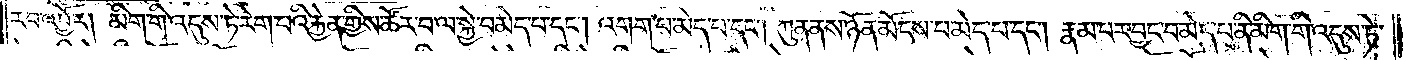རབ་འབྱོར། མིག་གི་འདུས་ཏེ་རེག་པའི་རྐྱེན་གྱིས་ཚོར་བ་ལ་སྐྱེ་བ་མེད་པ་དང༌། འགག་པ་མེད་པ་དང༌། ཀུན་ནས་ཉོན་མོངས་པ་མེད་པ་དང༌། རྣམ་པར་བྱང་བ་མེད་པ་ནི་མིག་གི་འདུས་ཏེ་
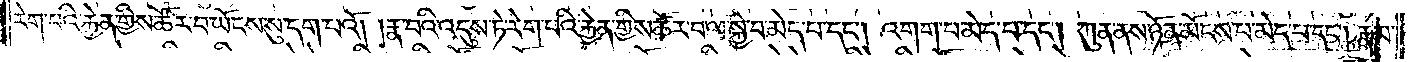རེག་པའི་རྐྱེན་གྱིས་ཚོར་བ་ཡོངས་སུ་དག་པའོ། །རྣ་བའི་འདུས་ཏེ་རེག་པའི་རྐྱེན་གྱིས་ཚོར་བ་ལ་སྐྱེ་བ་མེད་པ་དང༌། འགག་པ་མེད་པ་དང༌། ཀུན་ནས་ཉོན་མོངས་པ་མེད་པ་དང༌། རྣམ་
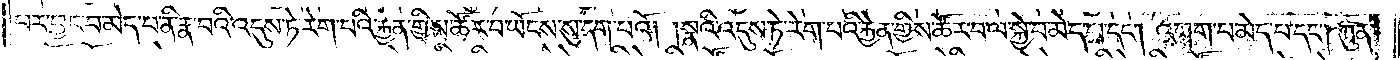པར་བྱང་བ་མེད་པ་ནི་རྣ་བའི་འདུས་ཏེ་རེག་པའི་རྐྱེན་གྱིས་ཚོར་བ་ཡོངས་སུ་དག་པའོ། །སྣའི་འདུས་ཏེ་རེག་པའི་རྐྱེན་གྱིས་ཚོར་བ་ལ་སྐྱེ་བ་མེད་པ་དང༌། འགག་པ་མེད་པ་དང༌། ཀུན་
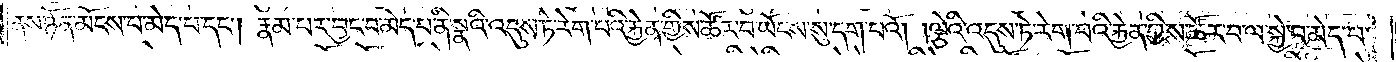ནས་ཉོན་མོངས་པ་མེད་པ་དང༌། རྣམ་པར་བྱང་བ་མེད་པ་ནི་སྣའི་འདུས་ཏེ་རེག་པའི་རྐྱེན་གྱིས་ཚོར་བ་ཡོངས་སུ་དག་པའོ། །ལྕེའི་འདུས་ཏེ་རེག་པའི་རྐྱེན་གྱིས་ཚོར་བ་ལ་སྐྱེ་བ་མེད་པ་
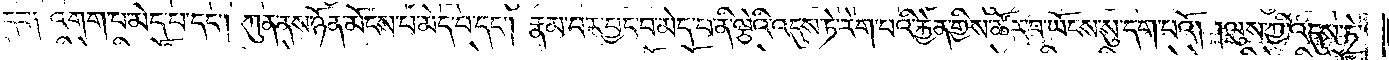དང་༑ འགག་པ་མེད་པ་དང༌། ཀུན་ནས་ཉོན་མོངས་པ་མེད་པ་དང༌། རྣམ་པར་བྱང་བ་མེད་པ་ནི་ལྕེའི་འདུས་ཏེ་རེག་པའི་རྐྱེན་གྱིས་ཚོར་བ་ཡོངས་སུ་དག་པའོ། །ལུས་ཀྱི་འདུས་ཏེ་
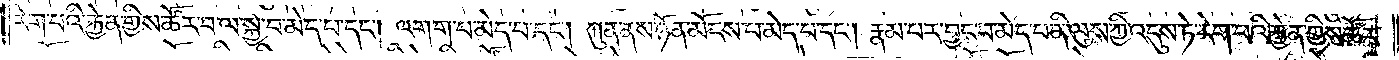རེག་པའི་རྐྱེན་གྱིས་ཚོར་བ་ལ་སྐྱེ་བ་མེད་པ་དང༌། འགག་པ་མེད་པ་དང༌། ཀུན་ནས་ཉོན་མོངས་པ་མེད་པ་དང༌། རྣམ་པར་བྱང་བ་མེད་པ་ནི་ལུས་ཀྱི་འདུས་ཏེ་རེག་པའི་རྐྱེན་གྱིས་ཚོར་
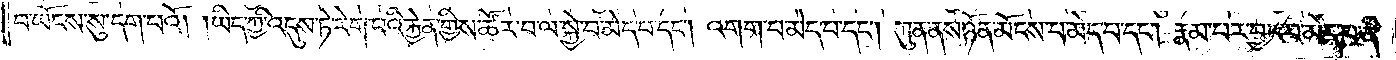བ་ཡོངས་སུ་དག་པའོ། །ཡིད་ཀྱི་འདུས་ཏེ་རེག་པའི་རྐྱེན་གྱིས་ཚོར་བ་ལ་སྐྱེ་བ་མེད་པ་དང༌། འགག་པ་མེད་པ་དང༌། ཀུན་ནས་ཉོན་མོངས་པ་མེད་པ་དང༌། རྣམ་པར་བྱང་བ་མེད་པ་ནི་
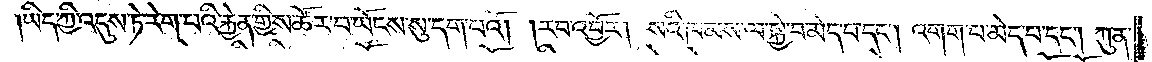ཡིད་ཀྱི་འདུས་ཏེ་རེག་པའི་རྐྱེན་གྱིས་ཚོར་བ་ཡོངས་སུ་དག་པའོ། །རབ་འབྱོར། སའི་ཁམས་ལ་སྐྱེ་བ་མེད་པ་དང༌། འགག་པ་མེད་པ་དང༌། ཀུན་
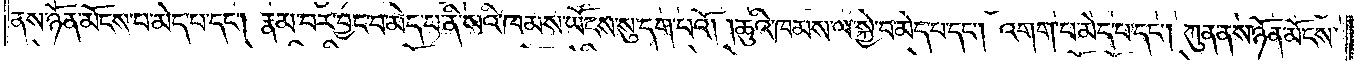ནས་ཉོན་མོངས་པ་མེད་པ་དང༌། རྣམ་པར་བྱང་བ་མེད་པ་ནི་སའི་ཁམས་ཡོངས་སུ་དག་པའོ། །ཆུའི་ཁམས་ལ་སྐྱེ་བ་མེད་པ་དང༌། འགག་པ་མེད་པ་དང༌། ཀུན་ནས་ཉོན་མོངས་
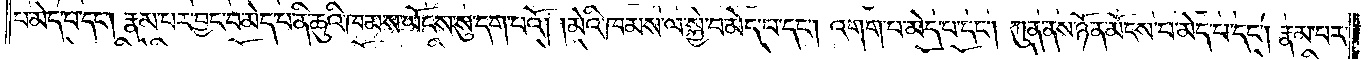པ་མེད་པ་དང༌། རྣམ་པར་བྱང་བ་མེད་པ་ནི་ཆུའི་ཁམས་ཡོངས་སུ་དག་པའོ། །མེའི་ཁམས་ལ་སྐྱེ་བ་མེད་པ་དང༌། འགག་པ་མེད་པ་དང༌། ཀུན་ནས་ཉོན་མོངས་པ་མེད་པ་དང༌། རྣམ་པར་
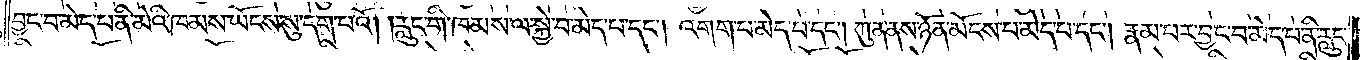བྱང་བ་མེད་པ་ནི་མེའི་ཁམས་ཡོངས་སུ་དག་པའོ། །རླུང་གི་ཁམས་ལ་སྐྱེ་བ་མེད་པ་དང༌། འགག་པ་མེད་པ་དང༌། ཀུན་ནས་ཉོན་མོངས་པ་མེད་པ་དང༌། རྣམ་པར་བྱང་བ་མེད་པ་ནི་རླུང་
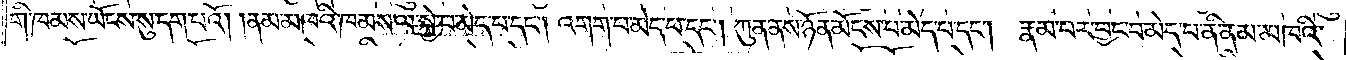གི་ཁམས་ཡོངས་སུ་དག་པའོ། །ནམ་མཁའི་ཁམས་ལ་སྐྱེ་བ་མེད་པ་དང༌། འགག་པ་མེད་པ་དང༌། ཀུན་ནས་ཉོན་མོངས་པ་མེད་པ་དང༌། རྣམ་པར་བྱང་བ་མེད་པ་ནི་ནམ་མཁའི་
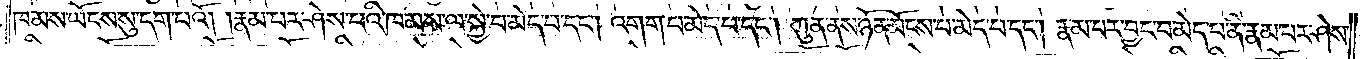ཁམས་ཡོངས་སུ་དག་པའོ། །རྣམ་པར་ཤེས་པའི་ཁམས་ལ་སྐྱེ་བ་མེད་པ་དང༌། འགག་པ་མེད་པ་དང༌། ཀུན་ནས་ཉོན་མོངས་པ་མེད་པ་དང༌། རྣམ་པར་བྱང་བ་མེད་པ་ནི་རྣམ་པར་ཤེས་
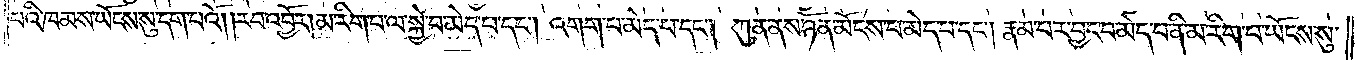པའི་ཁམས་ཡོངས་སུ་དག་པའོ། །རབ་འབྱོར། མ་རིག་པ་ལ་སྐྱེ་བ་མེད་པ་དང༌། འགག་པ་མེད་པ་དང༌། ཀུན་ནས་ཉོན་མོངས་པ་མེད་པ་དང༌། རྣམ་པར་བྱང་བ་མེད་པ་ནི་མ་རིག་པ་ཡོངས་སུ་
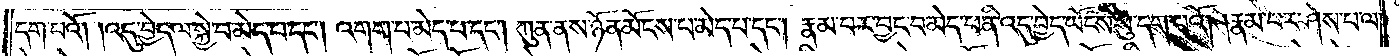དག་པའོ། །འདུ་བྱེད་ལ་སྐྱེ་བ་མེད་པ་དང༌། འགག་པ་མེད་པ་དང༌། ཀུན་ནས་ཉོན་མོངས་པ་མེད་པ་དང༌། རྣམ་པར་བྱང་བ་མེད་པ་ནི་འདུ་བྱེད་ཡོངས་སུ་དག་པའོ། །རྣམ་པར་ཤེས་པ་ལ་
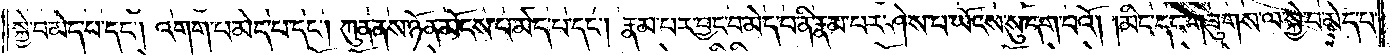སྐྱེ་བ་མེད་པ་དང༌། འགག་པ་མེད་པ་དང༌། ཀུན་ནས་ཉོན་མོངས་པ་མེད་པ་དང༌། རྣམ་པར་བྱང་བ་མེད་པ་ནི་རྣམ་པར་ཤེས་པ་ཡོངས་སུ་དག་པའོ། །མིང་དང་གཟུགས་ལ་སྐྱེ་བ་མེད་པ་
